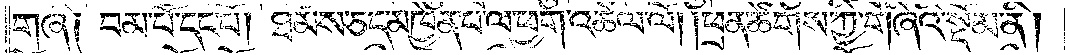གཞི༑ བམ་པོ་དང་པོ། ཐམས་ཅད་མཁྱེན་པ་ལ་ཕྱག་འཚལ་ལོ། །ཕྲན་ཚེགས་ཀྱི་གཞིའི་སྡོམ་ནི།
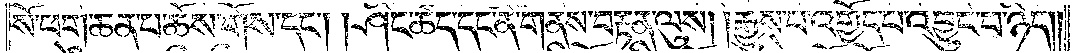སོ་ཕག་ཆན་པ་ཆོས་གོས་དང༌། །ཤིང་ཚད་དང་ནི་གནས་བརྟན་ལུས། །རྒྱུས་པ་འགྱོད་པ་འབྱུང་བ་ཉིད༎
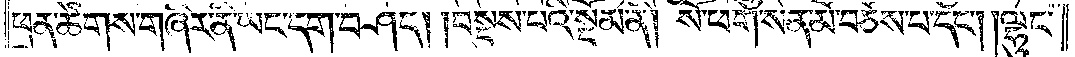ཕྲན་ཚེགས་གཞིར་ནི་ཡང་དག་བཤད།    །བསྡུས་པའི་སྡོམ་ནི། སོ་ཕག་སེན་མོ་བཅོས་པ་དང༌། །ལྷུང་
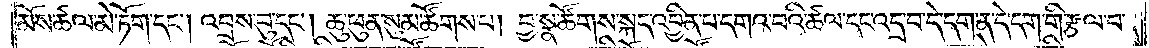མོས་ཚལ་མེ་ཏོག་དང༌། འབྲས་བུ་དང༌། ཆུ་ཕུན་སུམ་ཚོགས་པ། བྱ་སྣ་ཚོགས་སྐད་འབྱིན་པ་དགའ་བའི་ཚལ་དང་འདྲ་བ་དེ་དག་ན་དེ་དག་གི་རྩལ་བ་
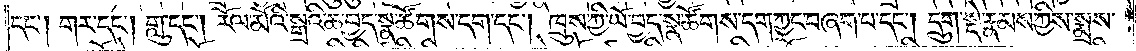དང༌། གར་དང༌། གླུ་དང༌། རོལ་མོའི་སྒྲའི་ཆ་བྱད་སྣ་ཚོགས་དག་དང༌། ཁྲུས་ཀྱི་ཡོ་བྱད་སྣ་ཚོགས་དག་ཀྱང་བཞག་པ་དང༌། དྲུག་སྡེ་རྣམས་ཀྱིས་སྨྲས་
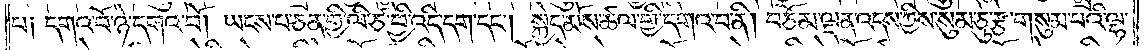པ༑ དགའ་བོ་ཉེ་དགའ་བོ། ཡངས་པ་ཅན་གྱི་ལི་ཙ་བྱི་འདི་དག་དང༌། སྐྱེད་མོས་ཚལ་གྱི་དགའ་བ་ནི། བཅོམ་ལྡན་འདས་ཀྱིས་སུམ་ཅུ་རྩ་གསུམ་པའི་ལྷ་
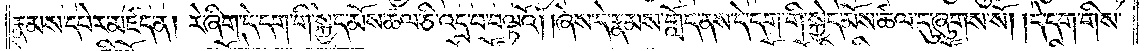རྣམས་དཔེར་མཛད་ན། རེ་ཞིག་དེ་དག་གི་སྐྱེད་མོས་ཚལ་ཅི་འདྲ་བ་བལྟའོ། །ཞེས་དེ་རྣམས་གློད་ནས་དེ་དག་གི་སྐྱེད་མོས་ཚལ་དུ་ཞུགས་སོ། །དེ་དག་གིས་
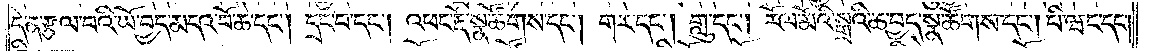དེ་ན་རྩལ་བའི་ཡོ་བྱད་མདའ་བོ་ཆེ་དང༌། དྲང་བ་དང༌། འཕང་རྡོ་སྣ་ཚོགས་དང༌། གར་དང༌། གླུ་དང༌། རོལ་མོའི་སྒྲའི་ཆ་བྱད་སྣ་ཚོགས་དང༌། པི་ཝང་དང་
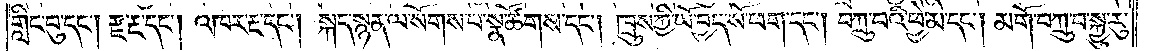གླིང་བུ་དང༌། རྫ་རྔ་དང༌། འཁར་རྔ་དང༌། སྐད་སྙན་ལ་སོགས་པ་སྣ་ཚོགས་དང༌། ཁྲུས་ཀྱི་ཡོ་བྱད་སོ་ཕག་དང༌། བཀྲུ་བའི་ཕྱེ་མ་དང༌། མགོ་བཀྲུ་བ་སྐྱུ་རུ་
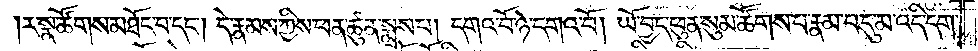ར་སྣ་ཚོགས་མཐོང་བ་དང༌། དེ་རྣམས་ཀྱིས་ཕན་ཚུན་སྨྲས་པ། དགའ་བོ་ཉེ་དགའ་བོ། ཡོ་བྱད་ཕུན་སུམ་ཚོགས་པ་རྣམ་པ་དུ་མ་འདི་དག་
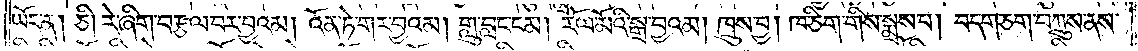ཡོད་ན། ཅི། རེ་ཞིག་བརྩལ་བར་བྱའམ། འོན་ཏེ་གར་བྱའམ། གླུ་བླང་ངམ། རོལ་མོའི་སྒྲ་བྱའམ། ཁྲུས་བྱ། ཁ་ཅིག་གིས་སྨྲས་པ། བདག་ཅག་བཀྲུས་ནས་
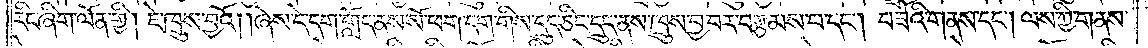རིང་ཞིག་ལོན་གྱི། ཇེ་ཁྲུས་བྱའོ། །ཞེས་དེ་དག་གློད་ནས་སོ་ཕག་དག་གིས་དྲུད་ཅིང་དྲུང་ནས་ཁྲུས་བྱ་བར་བརྩམས་པ་དང༌། བཟོའི་གནས་དང༌། ལས་ཀྱི་གནས་
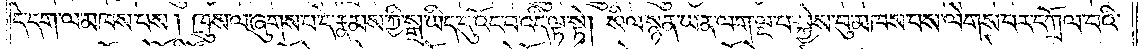དེ་དག་ལ་མཁས་པས། ཁྲུས་ལ་ཞུགས་པ་དེ་རྣམས་ཀྱི་སྒྲ་ཡིད་དུ་འོང་བ་འདི་ལྟ་སྟེ། སིལ་སྙན་ཡན་ལག་ལྔ་པ་སྐྱེས་བུ་མཁས་པས་ལེགས་པར་དཀྲོལ་བའི་
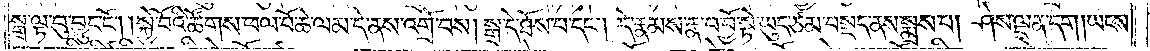སྒྲ་ལྟ་བུ་བྱུང་ངོ༌། །སྐྱེ་བོའི་ཚོགས་ཕལ་པོ་ཆེ་ལམ་དེ་ནས་འགྲོ་བས། སྒྲ་དེ་ཐོས་པ་དང༌། དེ་རྣམས་རྣ་བ་བྱོ་སྟེ་ཡུད་ཙམ་བསྡད་ནས་སྨྲས་པ། ཤེས་ལྡན་དག །ཡངས་
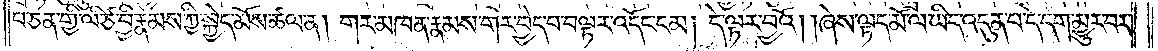པ་ཅན་གྱི་ལི་ཙ་བྱི་རྣམས་ཀྱི་སྐྱེད་མོས་ཚལ་ན། གར་མཁན་རྣམས་གར་བྱེད་པ་བལྟར་འདོང་ངམ། དེ་ལྟར་བྱའོ། །ཞེས་ལྟད་མོ་ལ་ཡིད་འདུན་པ་དེ་དག་མྱུར་བར་
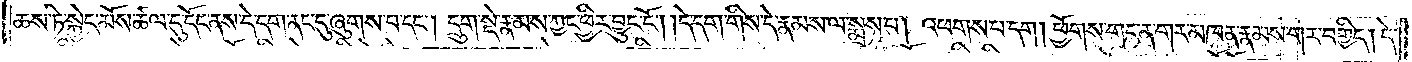ཆས་ཏེ་སྐྱེད་མོས་ཚལ་དུ་དོང་ནས་དེ་དག་ནང་དུ་ཞུགས་པ་དང༌། དྲུག་སྡེ་རྣམས་ཀྱང་ཕྱིར་བྱུང་ངོ༌། །དེ་དག་གིས་དེ་རྣམས་ལ་སྨྲས་པ། འཕགས་པ་དག། ཕྱོགས་གང་ན་གར་མཁན་རྣམས་གར་བགྱིད། དེ་
